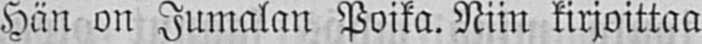Hän on Jumalan Poika. Niin kirjoittaa
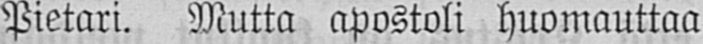Pietari. Mutta apostoli huomauttaa
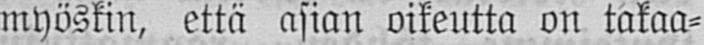myöskin, että asian oikeutta on takaa-
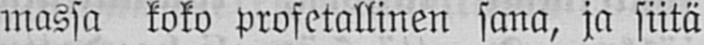massa koko profetallinen sana, ja siitä
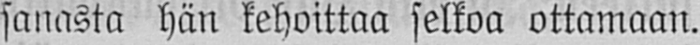sanasta hän kehoittaa selkoa ottamaan.
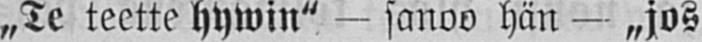„Te teette hywin" — sanoo hän — „jos
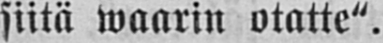siitä waarin otatte".
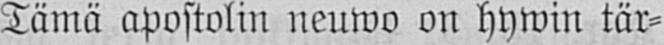Tämä apostolin neuwo on hywin tär-
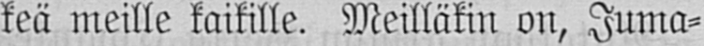keä meille kaikille. Meilläkin on, Juma-
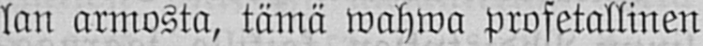lan armosta, tämä wahwa profetallinen
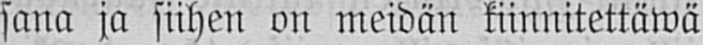sana ja siihen on meidän kiinnitettäwä
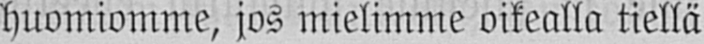huomiomme, jos mielimme oikealla tiellä
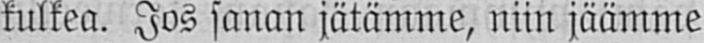kulkea. Jos sanan jätämme, niin jäämme
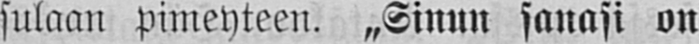sulaan pimeyteen. „Sinun sanasi on
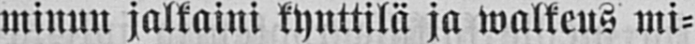minun jalkaini kynttilä ja walkeus mi-
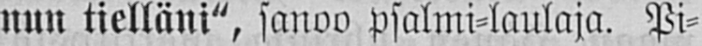nun tielläni", sanoo psalmi-laulaja. Pi-
